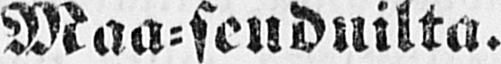Maa-senduilta.
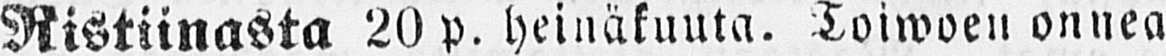Ristiinasta 20 p. heinäkuuta. Toiwoen onnea
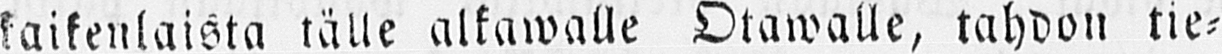kaikenlaista tälle alkawalle Otawalle, tahdon tie-
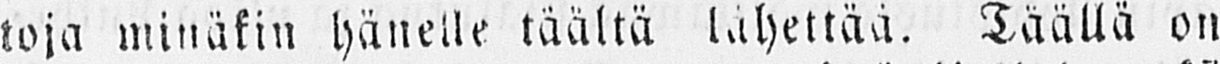toja minäkin hänelle täältä lähettää. Täällä on
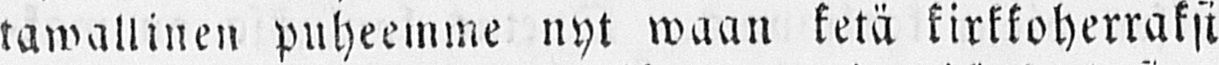tawallinen puheemme nyt waan ketä kirkkoherraksi
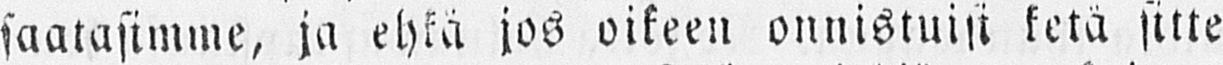saatasimme, ja ehkä jos oikeen onnistuisi ketä sitte
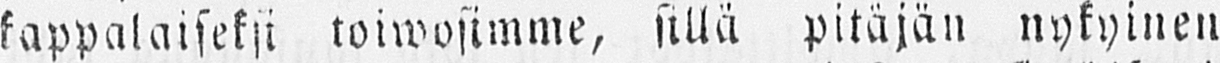kappalaiseksi toiwosimme, sillä pitäjän nykyinen
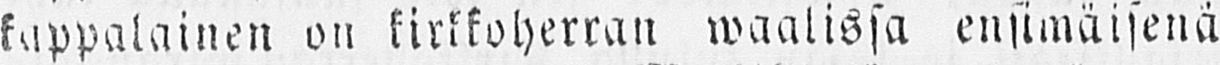kappalainen on kirkkoherran waalissa ensimäisenä
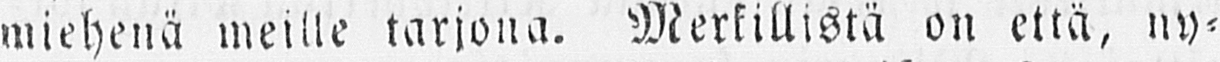miehenä meille tarjona. Merkillistä on että, ny-
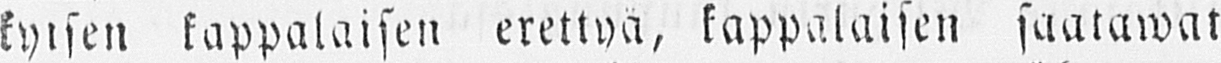kyisen kappalaisen erettyä, kappalaisen saatawat
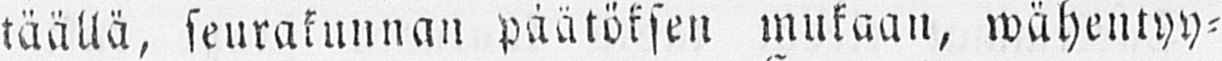täällä, seurakunnan päätöksen mukaan, wähentyy-
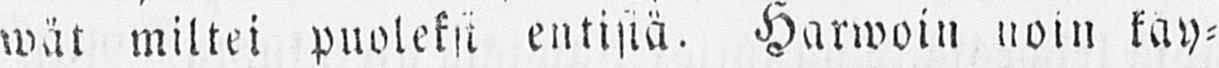wät miltei puoleksi entisiä. Harwoin noin, käy-
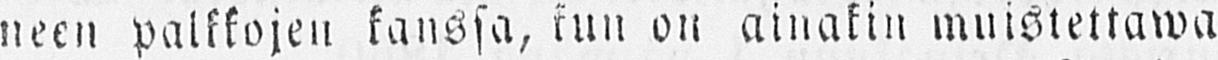neen palkkojen kanssa, kun on ainakin muistettawa
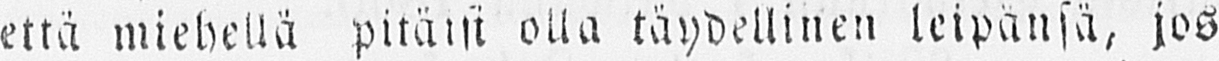että miehellä pitäisi olla täydellinen leipänsä, jos
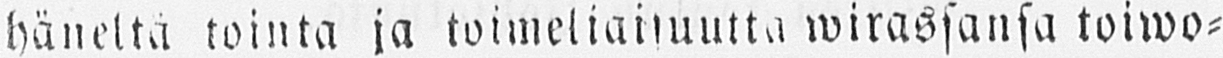häneltä tointa ja toimeliaisuutta wirassansa toiwo-
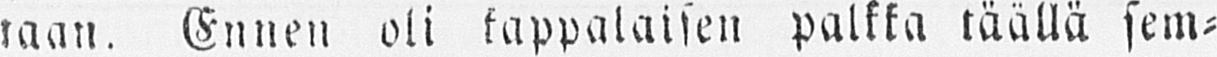taan. Ennen oli kappalaisen palkka täällä sem-
